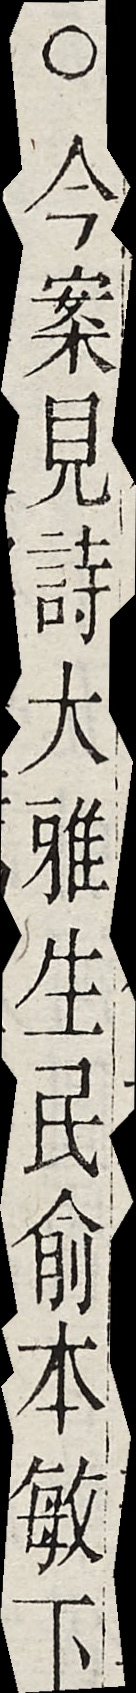○今案見詩大雅生民俞本敏下
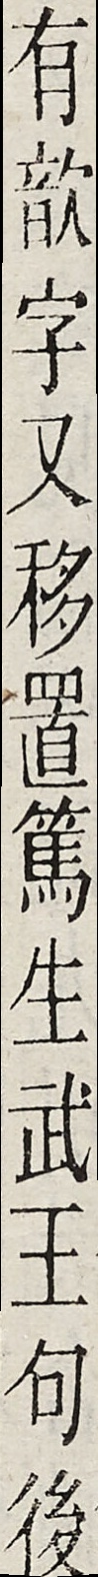有歆字又移置篤生武王句後
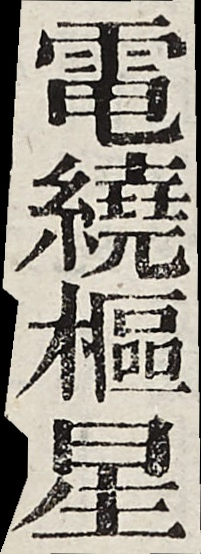電繞樞星
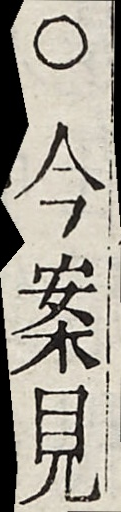○今案見
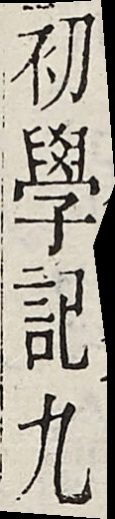初學記九
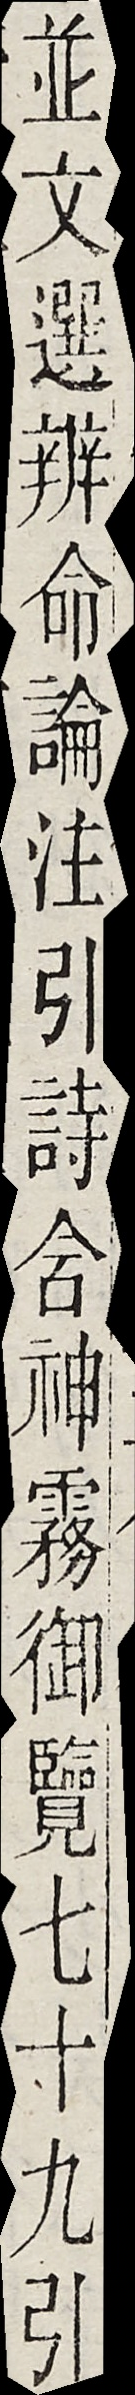並文選辨命論注引詩含神霧御覽七十九引
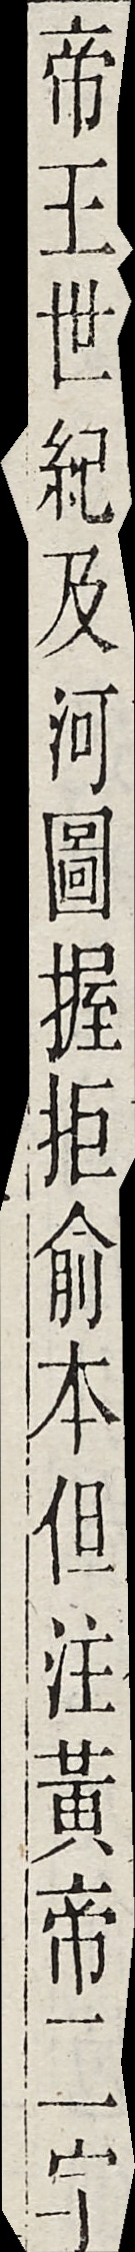帝王世紀及河圖握拒俞本但注黃帝二字
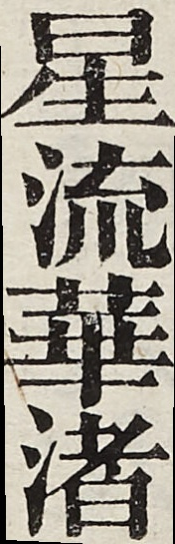星流黃渚
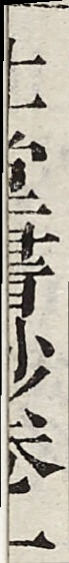北堂書鈔卷一
